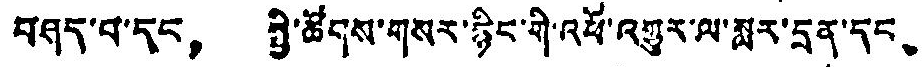བཤད་པ་དང， སྤྱི་ཚོགས་གསར་རྙིང་གི་འཕོ་འགྱུར་ལ་སླར་དྲན་དང、
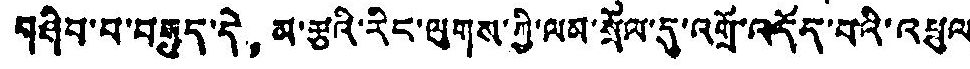བཤིབ་པ་བརྒྱུད་དེ， མ་རྩའི་རིང་ལུགས་ཀྱི་ལམ་སྲོལ་དུ་འགྲོ་འདོད་པའི་འཕྲུལ
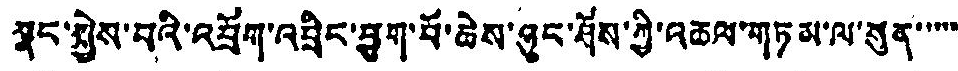སྣང་སྐྱེས་པའི་འབྲོག་འབྲིང་ཕྱུག་པོ་ཆེས་ཉུང་ཤོས་ཀྱི་འཆལ་གཏམ་ལ་སུན་་་་་་
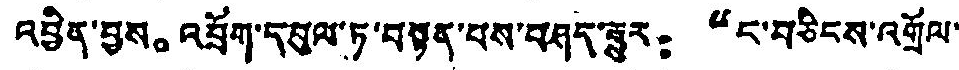འབྱིན་བྱས。 འབྲོག་དབུལ་ཏུ་བསྟན་པས་བཤད་རྒྱུར： “ང་བཅིངས་འགྲོལ་
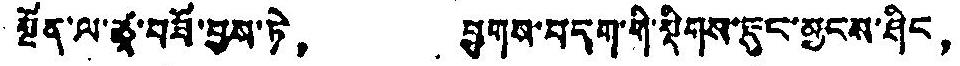སྔོན་ལ་རྩྭ་བཟོ་བྱས་ཏེ， ཕྱུགས་བདག་གི་སྡིགས་དུང་མྱངས་ཤིང，
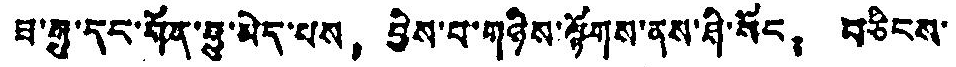བ་རྒྱུ་དང་བོན་རྒྱུ་མེད་པས， བྱིས་པ་གཉིས་ལྟོགས་ནས་ཤི་སོང， བཅིངས་
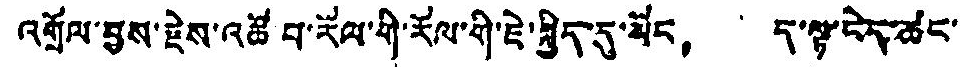འགྲོལ་བྱས་རྗེས་འཚོ བ་རོལ་གི་རོལ་གི་ཇེ་སྐྱིད་དུ་སོང， ད་ལྟ་ངེད་ཚང་
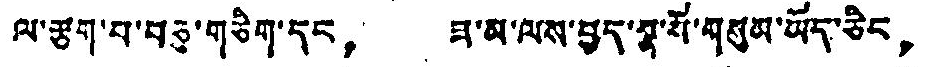ལ་རྩག་པ་བཅུ་གཅིག་དང， ཟ་མ་ལས་བྱད་སྣ་སོ་གསུམ་ཡོད་ཅིང，
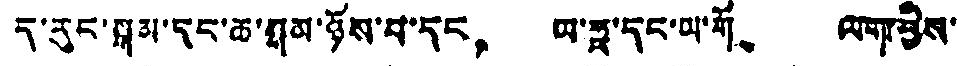ད་རུང་སྐམ་དང་ཆ་སམ་ཉོས་པ་དང， ཡ་ཧཱ་དང་ཡ་གོ、 ལག་ཕྱིས་
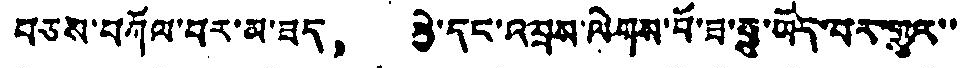བཅས་བཀོལ་བར་མ་ཟད， ཕྱེ་དང་འབྲམ་ལེགས་པོ་ཟ་རྒྱུ་ཡོད་པར་གྱུར་་
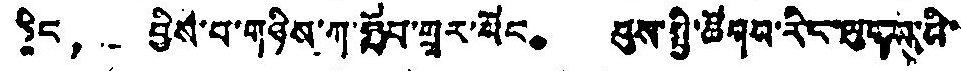ཉིང， བྱིས་པ་གཉིས་ཀ་སློབ་གྲྭར་སོང。 ཕུས་སྤྱི་ཚོགས་རིང་ལུགས་ཡི་
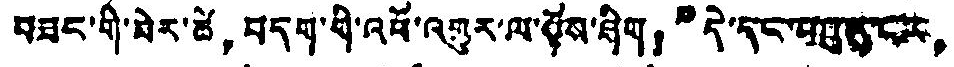བཟང་གི་ཟེར་ཚེ， བདག་གི་འཕོ་འགྱུར་ལ་སྟོས་ཤིག， དེ་དང་འཁྲུང་དང，
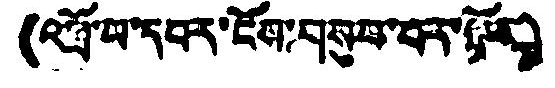(འཕྲོ་མ་དབར་ངོས་བསུབ་པར་སྟོས)
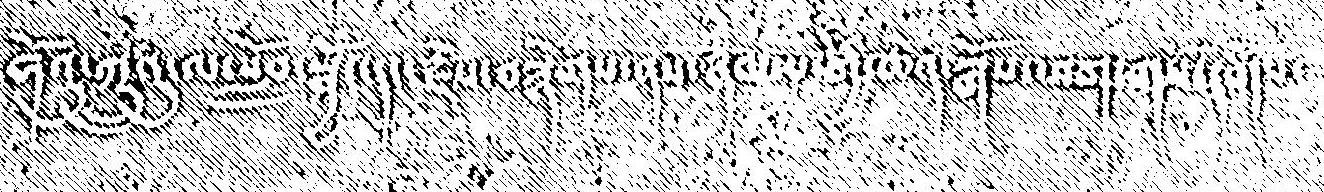ཧོའུ་ཀྲུའུ་ལ་སློབ་སྦྱོང་དང་རྗེས་བསྙེགས་ནས་ཉམས་གྱི་ཆེན་སྒོས་ཕག་གསོ་
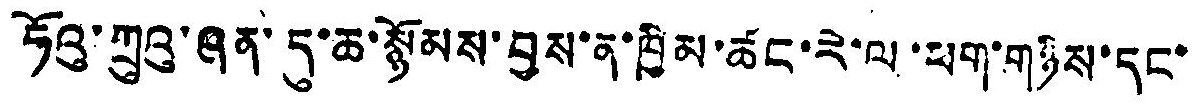ཧོའུ་ཀྲུའུ་ཞན་དུ་ཆ་སྙོམས་བྱས་ན་ཁྱིམ་ཚང་རེ་ལ་ཕག་གཉིས་དང་
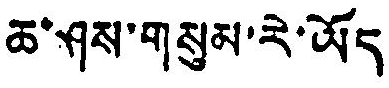ཆ་ཤས་གསུམ་རེ་ཡོད
